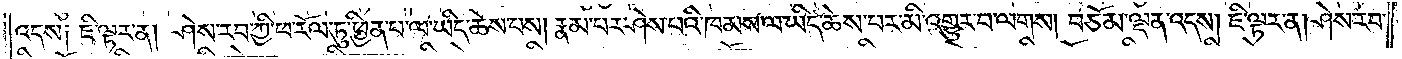འདས༑ ཇི་ལྟར་ན། ཤེས་རབ་ཀྱི་ཕ་རོལ་ཏུ་ཕྱིན་པ་ལ་ཡིད་ཆེས་པས། རྣམ་པར་ཤེས་པའི་ཁམས་ལ་ཡིད་ཆེས་པར་མི་འགྱུར་བ་ལགས། བཅོམ་ལྡན་འདས། ཇི་ལྟར་ན། ཤེས་རབ་
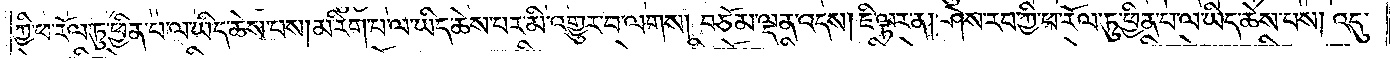ཀྱི་ཕ་རོལ་ཏུ་ཕྱིན་པ་ལ་ཡིད་ཆེས་པས། མ་རིག་པ་ལ་ཡིད་ཆེས་པར་མི་འགྱུར་བ་ལགས། བཅོམ་ལྡན་འདས། ཇི་ལྟར་ན། ཤེས་རབ་ཀྱི་ཕ་རོལ་ཏུ་ཕྱིན་པ་ལ་ཡིད་ཆེས་པས། འདུ་
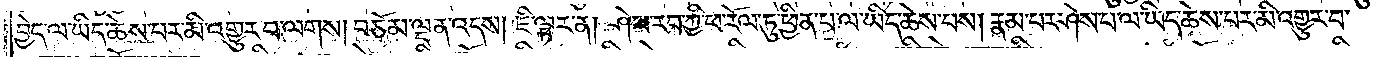བྱེད་ལ་ཡིད་ཆེས་པར་མི་འགྱུར་བ་ལགས། བཅོམ་ལྡན་འདས། ཇི་ལྟར་ན། ཤེས་རབ་ཀྱི་ཕ་རོལ་ཏུ་ཕྱིན་པ་ལ་ཡིད་ཆེས་པས། རྣམ་པར་ཤེས་པ་ལ་ཡིད་ཆེས་པར་མི་འགྱུར་བ་
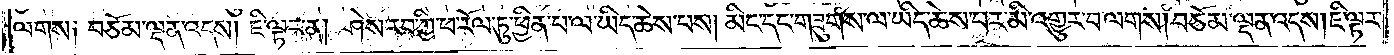ལགས༑ བཅོམ་ལྡན་འདས། ཇི་ལྟར་ན། ཤེས་རབ་ཀྱི་ཕ་རོལ་ཏུ་ཕྱིན་པ་ལ་ཡིད་ཆེས་པས། མིང་དང་གཟུགས་ལ་ཡིད་ཆེས་པར་མི་འགྱུར་བ་ལགས། བཅོམ་ལྡན་འདས། ཇི་ལྟར་
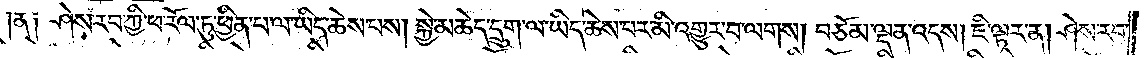ན༑ ཤེས་རབ་ཀྱི་ཕ་རོལ་ཏུ་ཕྱིན་པ་ལ་ཡིད་ཆེས་པས། སྐྱེ་མཆེད་དྲུག་ལ་ཡིད་ཆེས་པར་མི་འགྱུར་བ་ལགས། བཅོམ་ལྡན་འདས། ཇི་ལྟར་ན། ཤེས་རབ་
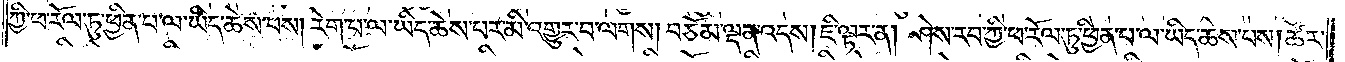ཀྱི་ཕ་རོལ་ཏུ་ཕྱིན་པ་ལ་ཡིད་ཆེས་པས། རེག་པ་ལ་ཡིད་ཆེས་པར་མི་འགྱུར་བ་ལགས། བཅོམ་ལྡན་འདས། ཇི་ལྟར་ན། ཤེས་རབ་ཀྱི་ཕ་རོལ་ཏུ་ཕྱིན་པ་ལ་ཡིད་ཆེས་པས། ཚོར་
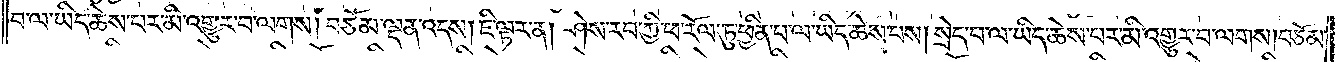བ་ལ་ཡིད་ཆེས་པར་མི་འགྱུར་བ་ལགས། བཅོམ་ལྡན་འདས། ཇི་ལྟར་ན། ཤེས་རབ་ཀྱི་ཕ་རོལ་ཏུ་ཕྱིན་པ་ལ་ཡིད་ཆེས་པས། སྲེད་པ་ལ་ཡིད་ཆེས་པར་མི་འགྱུར་བ་ལགས། བཅོམ་
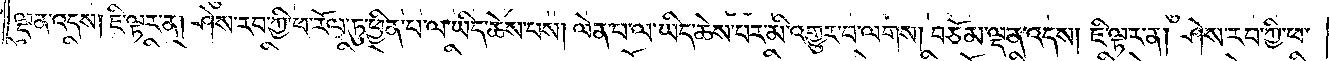ལྡན་འདས། ཇི་ལྟར་ན། ཤེས་རབ་ཀྱི་ཕ་རོལ་ཏུ་ཕྱིན་པ་ལ་ཡིད་ཆེས་པས། ལེན་པ་ལ་ཡིད་ཆེས་པར་མི་འགྱུར་བ་ལགས། བཅོམ་ལྡན་འདས། ཇི་ལྟར་ན། ཤེས་རབ་ཀྱི་ཕ་
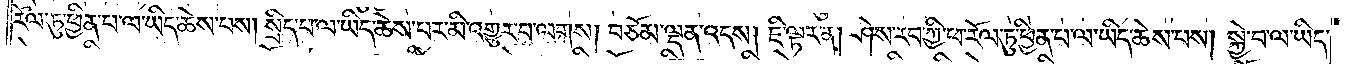རོལ་ཏུ་ཕྱིན་པ་ལ་ཡིད་ཆེས་པས། སྲིད་པ་ལ་ཡིད་ཆེས་པར་མི་འགྱུར་བ་ལགས། བཅོམ་ལྡན་འདས། ཇི་ལྟར་ན། ཤེས་རབ་ཀྱི་ཕ་རོལ་ཏུ་ཕྱིན་པ་ལ་ཡིད་ཆེས་པས། སྐྱེ་བ་ལ་ཡིད་
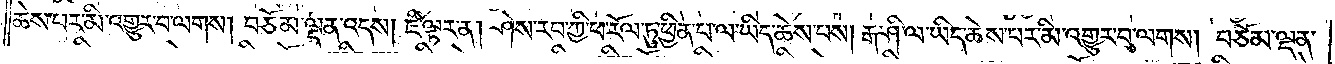ཆེས་པར་མི་འགྱུར་བ་ལགས། བཅོམ་ལྡན་འདས། ཇི་ལྟར་ན། ཤེས་རབ་ཀྱི་ཕ་རོལ་ཏུ་ཕྱིན་པ་ལ་ཡིད་ཆེས་པས། རྒ་ཤི་ལ་ཡིད་ཆེས་པར་མི་འགྱུར་བ་ལགས། །བཅོམ་ལྡན་
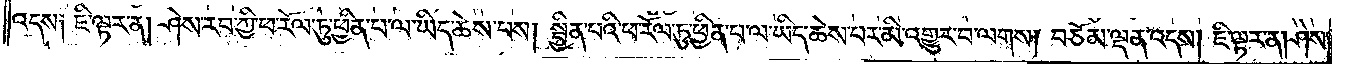འདས༑ ཇི་ལྟར་ན། ཤེས་རབ་ཀྱི་ཕ་རོལ་ཏུ་ཕྱིན་པ་ལ་ཡིད་ཆེས་པས། སྦྱིན་པའི་ཕ་རོལ་ཏུ་ཕྱིན་པ་ལ་ཡིད་ཆེས་པར་མི་འགྱུར་བ་ལགས། བཅོམ་ལྡན་འདས། ཇི་ལྟར་ན། ཤེས་
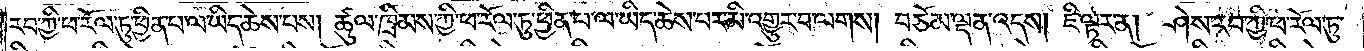རབ་ཀྱི་ཕ་རོལ་ཏུ་ཕྱིན་པ་ལ་ཡིད་ཆེས་པས། ཚུལ་ཁྲིམས་ཀྱི་ཕ་རོལ་ཏུ་ཕྱིན་པ་ལ་ཡིད་ཆེས་པར་མི་འགྱུར་བ་ལགས། བཅོམ་ལྡན་འདས། ཇི་ལྟར་ན། ཤེས་རབ་ཀྱི་ཕ་རོལ་ཏུ་
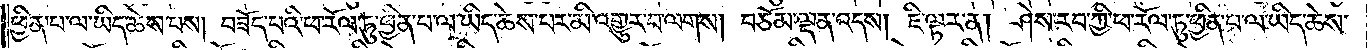ཕྱིན་པ་ལ་ཡིད་ཆེས་པས། བཟོད་པའི་ཕ་རོལ་ཏུ་ཕྱིན་པ་ལ་ཡིད་ཆེས་པར་མི་འགྱུར་བ་ལགས། བཅོམ་ལྡན་འདས། ཇི་ལྟར་ན། ཤེས་རབ་ཀྱི་ཕ་རོལ་ཏུ་ཕྱིན་པ་ལ་ཡིད་ཆེས་
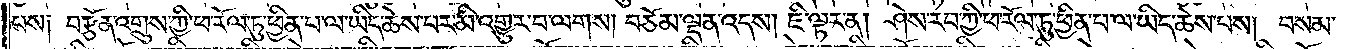པས༑ བརྩོན་འགྲུས་ཀྱི་ཕ་རོལ་ཏུ་ཕྱིན་པ་ལ་ཡིད་ཆེས་པར་མི་འགྱུར་བ་ལགས། བཅོམ་ལྡན་འདས། ཇི་ལྟར་ན། ཤེས་རབ་ཀྱི་ཕ་རོལ་ཏུ་ཕྱིན་པ་ལ་ཡིད་ཆེས་པས། བསམ་
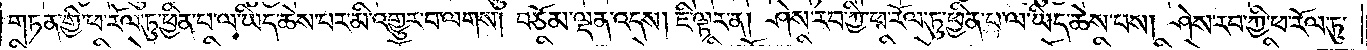གཏན་གྱི་ཕ་རོལ་ཏུ་ཕྱིན་པ་ལ་ཡིད་ཆེས་པར་མི་འགྱུར་བ་ལགས། བཅོམ་ལྡན་འདས། ཇི་ལྟར་ན། ཤེས་རབ་ཀྱི་ཕ་རོལ་ཏུ་ཕྱིན་པ་ལ་ཡིད་ཆེས་པས། ཤེས་རབ་ཀྱི་ཕ་རོལ་ཏུ་
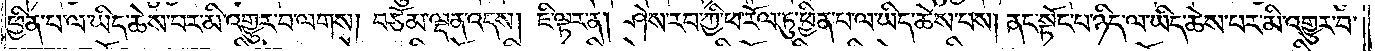ཕྱིན་པ་ལ་ཡིད་ཆེས་པར་མི་འགྱུར་བ་ལགས། བཅོམ་ལྡན་འདས། ཇི་ལྟར་ན། ཤེས་རབ་ཀྱི་ཕ་རོལ་ཏུ་ཕྱིན་པ་ལ་ཡིད་ཆེས་པས། ནང་སྟོང་པ་ཉིད་ལ་ཡིད་ཆེས་པར་མི་འགྱུར་བ་
